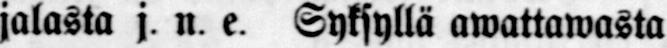jalasta j. n. e. Syksyllä owattawasta
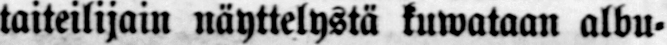taiteilijain näyttelystä kuwataan albu-
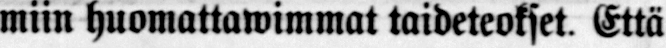miin huomattawimmat taideteokset. Että
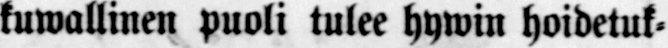tuwallinen puoli tulee hywin hoidetuk-
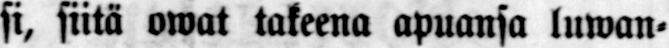si, siitä owat takeena apuansa luwan-
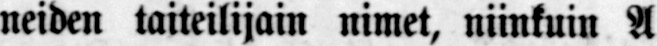neiden taiteilijain nimet, niinkuin A
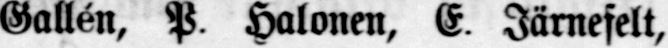Gallén, P. Halonen, E. Järnefelt,
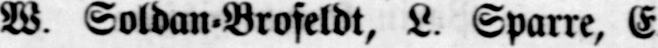W. Soldan-Brofeldt, L. Sparre, E.
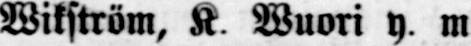Wikström, K. Wuori y. m
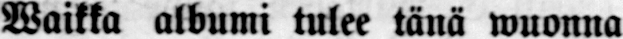Waikka albumi tulee tänä wuonaa
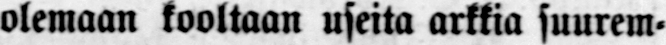olemaan kooltaan useita arkkia suurem-
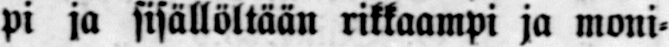pi ja sisällöltään rikkaampi ja moni-
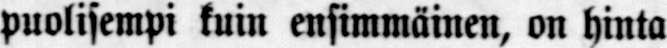puolisempi kuin ensimmäinen, on hinta
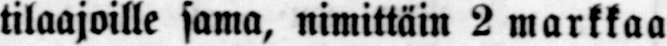tilaajoille sama, nimittäin 2 markkaa
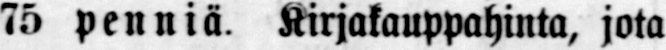75 penniä. Kirjakauppahinta, jota
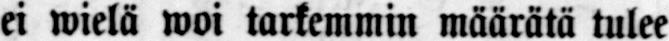ei wielä woi tarkemmin määrätä tulee
